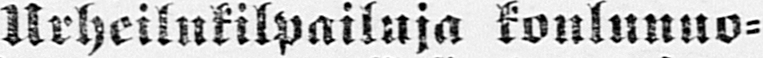Urheilukilpailuja koulunuo-
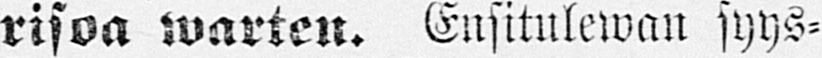risoa warten. Ensitulewan syys-
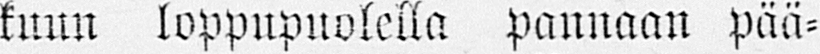kuun loppupuolella pannaan pää-
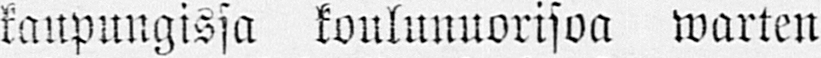kaupungissa koulunuorisoa warten
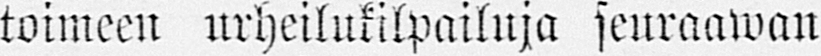toimeen urheilukilpailuja seuraawan
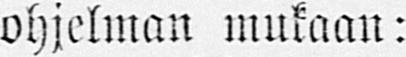ohjelman mukaan:
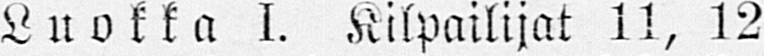Luokka I. kilpailijat 11, 12
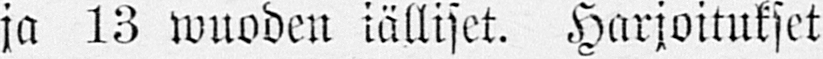ja 13 wuoden iälliset. Harjoitukset
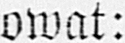owat:
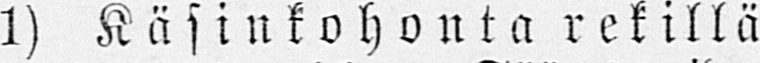1) Käsinkohonta rekillä
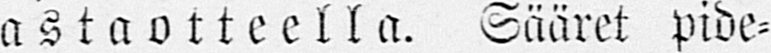wastaotteella. Sääret pide-
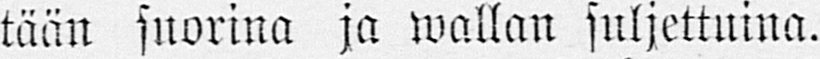tään suorina ja wallan suljettuina.
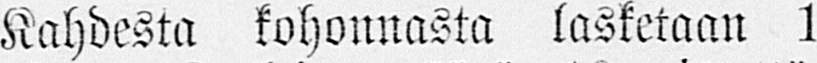Kahdesta kohonnasta lasketaan 1
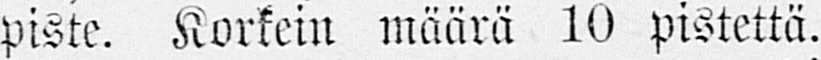piste. Korkein määrä 10 pistettä.
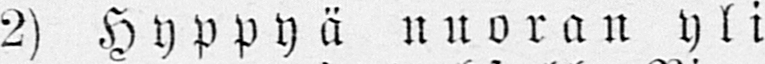2) Hyppyä nuoran yli
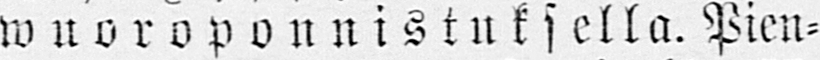wuoroponnistuksella. Pien-
